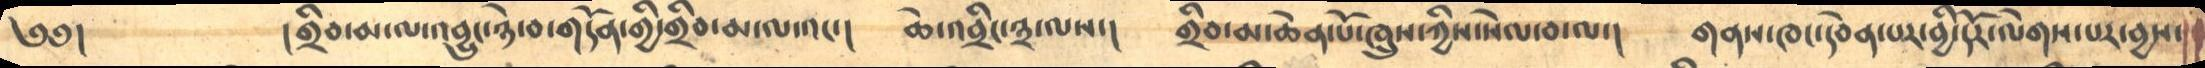༄༅།        །གྲིབ་མ་ལ་འབྱུང་ཉེ་བ་གདོན་གྱི་གྲིབ་མ་ལ་འང་།   ཆེ་འབྲིང་༣་ལས་།    གྲིབ་མ་ཆེན་པོ་ཁྲུས་ཀྱིས་སེལ་བ་ལ་།   གནས་ཁང་དབེན་པར་བྱི་དོར་ལེགས་པར་བྱས་
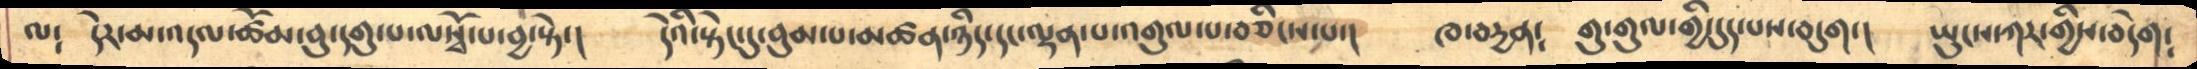ལ༴   དེར་མ་འདལ་ཚོམ་བུ་དགུ་པ་ལསྭོ་པ་བྱ་སྟེ་།     དེའི་སྟེང་དུ་བུམ་པ་མཚན་ཉིད་དང་ལྡན་པ་འགུལ་པ་བཅིངས་པ་།    ཁ་བརྱན༴   གུ་གུལ་གྱི་དུད་པས་བདུག་།   ཡུངས་ཀར་གྱིས་བདེག༴
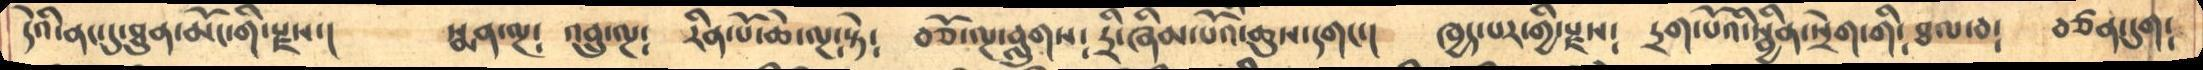དེའི་ནང་དུ་྇ཐུག་མོང་གི་སྗས་།   སྨན་ལྔ༴ འབྲུ་ལྔ༴ རིན་པོ་ཆེ་ལྔ་སྟེ༴ བཅོ་ལྔ་བླུགས༴ དྲི་ཞིམ་པོའི་ཆུས་དགང་། ཁྱད་པར་གྱི་རྫས༴ དྲག་པོའི་སྦྱིན་སྲོག་གི༴ ཐལ་བ༴ བཙན་དུག༴
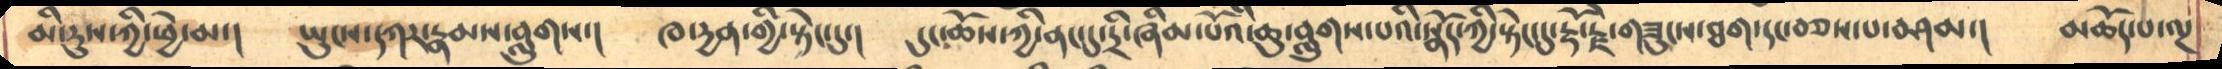མི་རུས་ཀྱི་ཕྱེ་ལ་།  ཡུངས་དཀར་རྣམས་བླུགས་།  ཁ་དྱན་གྱི་སྟེང་དུ་།  དུང་ཆོས་ཀྱི་ནང་དུ་དྲི་ཞིམ་པོའི་ཆུ་བླུགས་པའི་སྣོད་ཀྱི་སྟེང་དུ་རྡོ་རྗེ་གཟུངས་ཐག་དང་བཅས་པ་བཤམ་།   མཆོད་པ་ལྔ
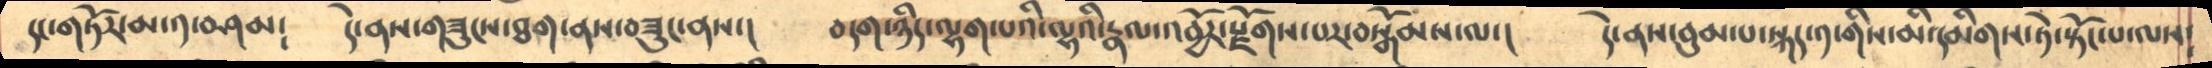དང་གཏོར་མ་༡་བཤམ༴  དེ་ནས་གཟུངས་ཐག་ནས་བཟུང་ནས་།  བདག་ཉིད་ལྷག་པའི་ལྷའི་རྣམ་འབྱོར་རྫོགས་པར་བསྒོམས་མ་།  དེ་ནས་བུམ་པ་སྐད་༡་གིས་མི་དམིགས་ཏེ་སྟོང་པ་ལས༴
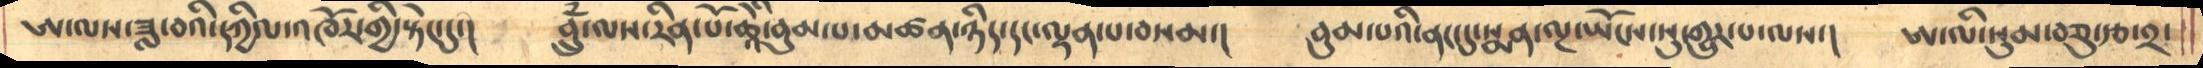ཨ་ལས་ཟླ་བའི་དཀྱིལ་འཁོར་གྱི་སྟེང་དུ་།       བྲུྃ་ལས་རིན་པོ་ཆཱེི་བུམ་པ་མཚན་ཉིད་དང་ལྡན་པ་བསམ་།     བུམ་པའི་ནང་དུ་སྨན་ལྔ་ཡོངས་སུ་གྱུར་པ་ལས་།  ཨ་ལི་སུམ་བཅུ་རྩ་༢་
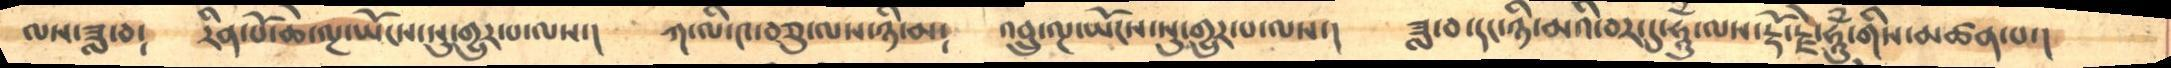ལས་ཟླ་བ༴    རིན་པོ་ཆེ་ལྔ་ཡོངས་སུ་གྱུར་པ་ལས་།    ཀ་ལི་༤་བཅུ་ལས་ཉི་མ༴    འབྲུ་ལྔ་ཡོངས་སུ་གྱུར་པ་ལས་།  ཟླ་བ་དང་ཉི་མའི་བར་དུ་ཧཱུཾ་ལས་རྡོ་རྗེ་ཧཱུཾ་གིས་མཚན་པ་།
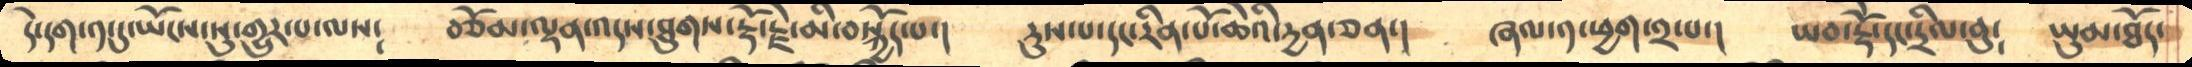དེ་དག་༡་དུ་ཡོངས་སུ་གྱུར་པ་ལས༴   བཅོམ་ལྡན་འདས་ཐུགས་རྡོ་རྗེ་མི་བསྐྱོད་པ་།    རུས་པ་དང་རིན་པོ་ཆེའི་དྱན་ཅན་།   ཞལ་༡་ཕྱག་༢་པ་།  ཡབ་རྡོེ་དང་དྲིལ་བུ༴   ཡུམ་ཐོད་
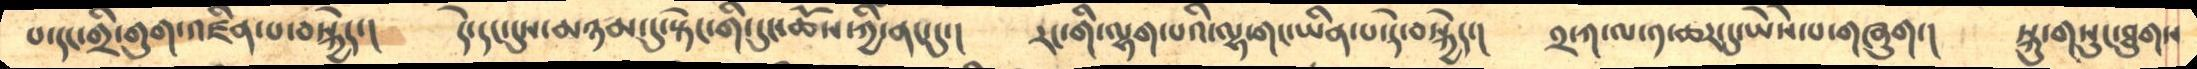པ་དང་གྲི་གུག་འཛིན་པ་བསྐྱེད་།      དེ་དང་དུས་མཉམ་དུ་སྟེང་གི་དུང་ཆོས་ཀྱི་ནང་དུ་།   རང་གི་ལྷག་པའི་ལྷ་གང་ཡིན་པ་དེ་བསྐྱེད་།   ༢་ཀ་ལ་༡་ཆར་དུ་ཡཻས་པ་གཞུག་།   སྐུ་གསུང་ཐུགས
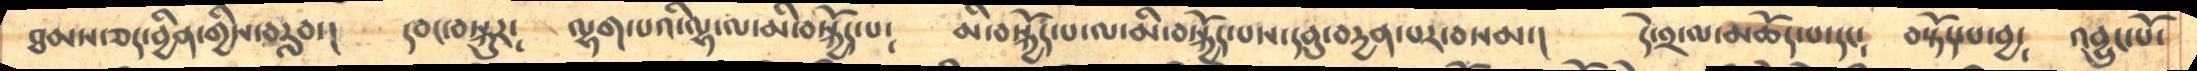ཐམས་ཅད་བྱིན་གྱིས་བརླབ་།   དབང་བསྐུར༴  ལྷག་པའི་ལྷ་ལ་མི་བསྐྱོད་པ༴   མི་བསྐྱོད་པ་ལ་མི་བསྐྱོད་པས་དབུ་བདྱན་པར་བསམ་།   དེ་༢་ལ་མཆོད་པ་དང༴   བསྟོད་པ་བྱ༴   འབྱུང་པོ་
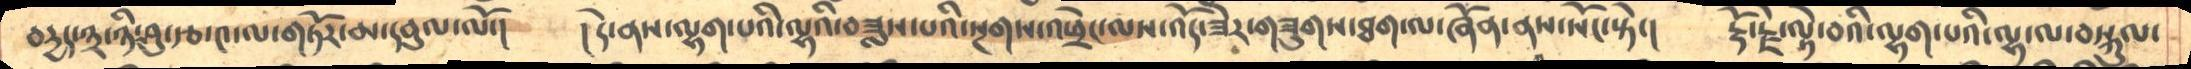བདྱད་༣་ཉི་ཤུ་རྩ་༤་ལ་གཏོར་མ་དབུལ་ལོ་།    །དེ་ནས་ལྷག་པའི་ལྷའི་བཟླས་པའི་སྔགས་འཕྲེང་ལས་འོད་ཟེར་གཟུགས་ཐག་ལ་ཞོན་ནས་སོང་སྟེ་།    རྡོ་རྗེ་ལྟེ་བའི་ལྷག་པའི་ལྷ་ལ་བསྐུལ་
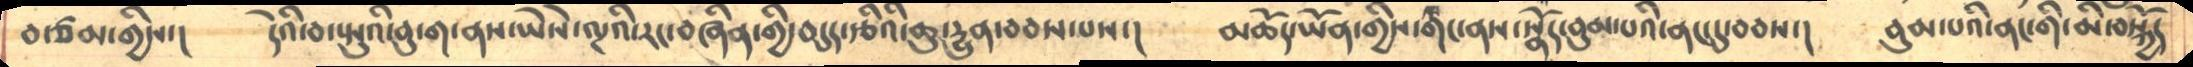བ་ཙམ་གྱིས་།     དེའི་བ་སྤུའི་བུ་ག་ནས་ཡཻས་ལྔའི་རང་བཞིན་གྱི་བདུད་རྩིའི་ཆུ་དྱུན་བབས་པས་།    མཆོད་ཡོན་གྱིས་གང་ནས་སྣོད་བུམ་པའི་ནང་དུ་བབས་།    བུམ་པའི་ནང་གི་མི་བསྐྱོད
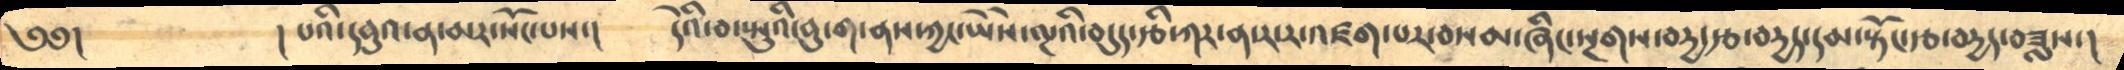༄༅།         །པའི་དབུའ་ན་མར་སོང་པས་།    དེའི་བ་སྤུའི་བུ་ག་ནས་ཀྱང་ཡཻས་ལྔའི་བདུད་རྩི་ཀར་ན་ར་ར་འཛག་པར་བསམ་ཞིང་སྔགས་བདྱ་རྩ་བདྱད་དམ་སྟོང་རྩ་བདྱད་བཟླས་།
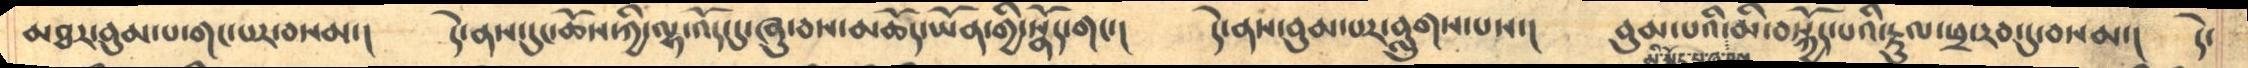མཐར་བུམ་པ་གང་པར་བསམ་།    དེ་ནས་དུང་ཆོས་ཀྱི་ལྷ་འོད་དུ་ཞུ་བས་མཆོད་ཡོན་གྱི་སྣོད་གང་།    དེ་ནས་བུམ་པར་བླུགས་པས་།  བུམ་པའི་མི་བསྐྱོད་པའི་རྡུལ་ཕྲ་རབ་དུ་བསམ་།    དེ་
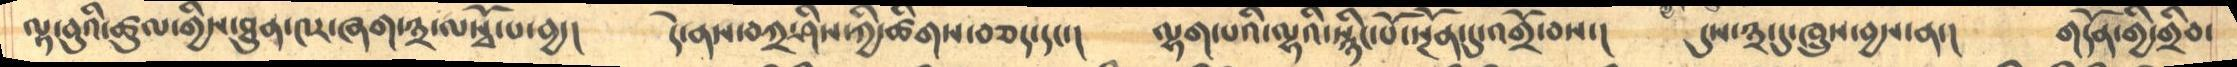ལྟ་བུའི་ཚུལ་གྱིས་ཐུན་༤ར་ཞག་༣་ལསྭོ་པ་བྱ་།     དེ་ནས་བཀྲ་ཤིས་ཀྱི་ཚིགས་བཅད་དང་།    ལྷག་པའི་ལྷའི་སྙིང་པོ་སྔོན་དུ་འགྲོ་བས་།    དུས་༣་དུ་ཁྲུས་བྱས་ན་།   གདོན་གྱི་གྲིབ་
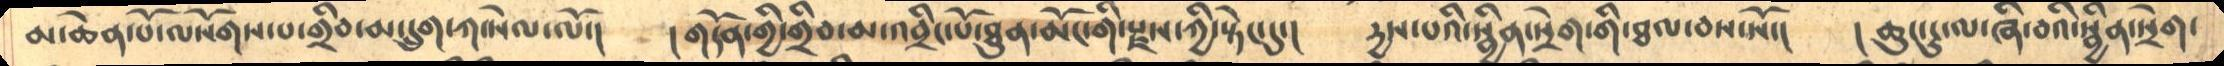མ་ཆེན་པོ་ལསོགས་པ་གྲིབ་མ་དྲུག་ཀ་སེལ་ལོ་།    །གདོན་གྱི་གྲིབ་མ་འབྲིང་པོ་ཐུན་མོང་གི་རྫས་ཀྱི་སྟེང་དུ་།   དྱས་པའི་སྦྱིན་སྲེག་གི་ཐལ་བས་སོ་།    ། ཆུང་ངུ་ལ་ཞི་བའི་སྦྱིན་སྲེག་
